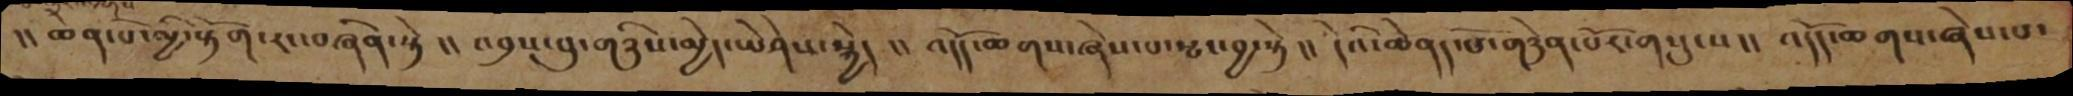།། ཆེན་པོ་མྱི་རྟོག་རང་བཞིན་སྟེ །། འབྲས་བུ་གཉིས་མྱེད་ཡེ་ཤེས་སྐྱེད །། འདོད་ཆགས་ཞེས་པ་སྤང་བྱ་སྟེ །། དེའི་ཆེནད་པོ་གཉེན་པོར་གསུངས།། འདོད་ཆགས་ཞེས་པ་
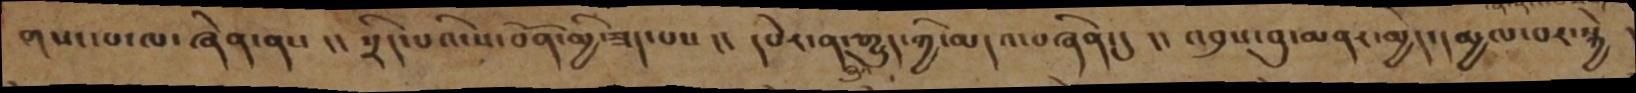གསང་པ་ལ་ཞེན་ནས །། སྲིད་པའི་ས་བོན་མྱི་ཟད་པས །། དཔེར་ན་རྒྱུད་གྱི་མདའ་བཞིན་དུ །། འབྲས་བུ་མནར་མྱེད་དམྱལ་པར་སྐྱེ །།
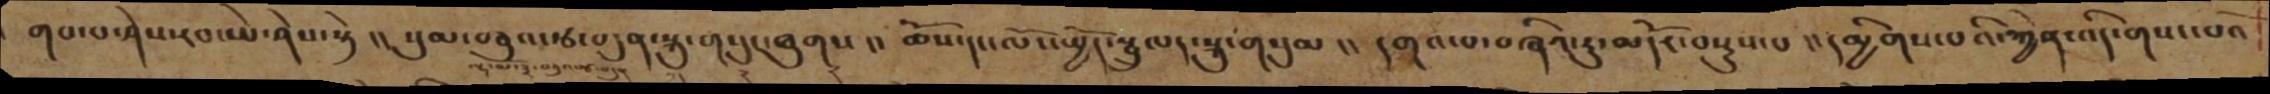གབ་པ་ཤེས་རབ་ཡེ་ཤེས་སྟེ །།སུམ་བཅུ་རྩ་བདུན་སྐུ་གསུང་ཐུགས །། ཆོས་དང་ལོང་སྤྱོད་སྤྲུལད་སྐུ་གསུམ །། དགའ་པ་བཞིའ་རུ་མདོར་བསྡུས་པ །། དམྱིགས་པའི་རྐྱེན་འདི་གསང་པའོ
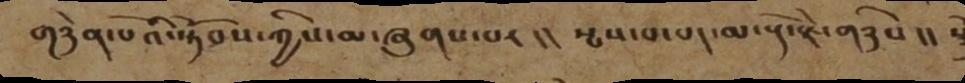གཉེན་པོའི་སྟོབས་ཀྱིས་མ་ཞུགས་པར །། སྦས་པ་པད་མ་རྡོ་རྗེ་གཉིས །།
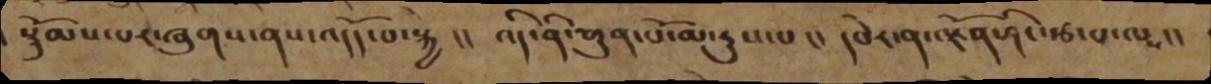སྙོམས་པར་ཞུགས་ནས་འདོད་པ་སྐྱེ །།  འདི་ནི་གུན་པོ་མ་རུས་པ །། དཔེར་ན་ལྗོན་ཤིང་རྩ་བ་ལས།།
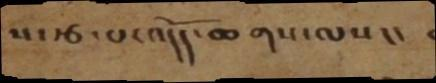པ་རྩ་པ་འདོད་ཆགས་ལས།།
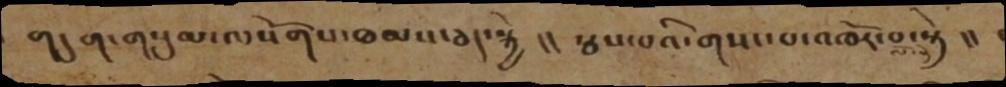གདུག་གསུམ་ལསོགས་ཐམས་ཅད་སྐྱེ །། སྦས་པའི་གསང་པ་འཁོར་བ་སྟེ །།
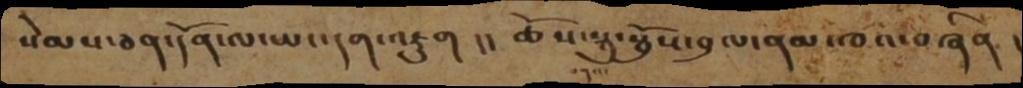སེམས་ཅན་དོན་ལ་ཡང་དག་འཇུག །།  ཆོས་སྐུ་སྤྲོས་བྲལ་ནམ་ཁའ་བཞིན །།
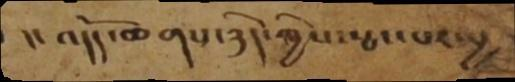།། འདོད་ཆགས་ཉིད་ཀྱིས་སྤང་པར་བྱ
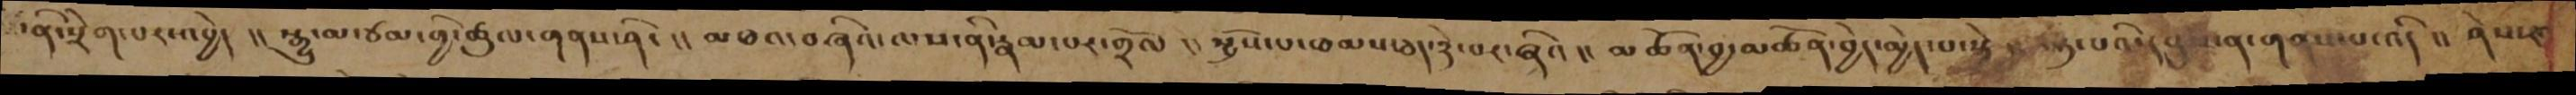་ནི་སྲེག་པར་འབྱེད།། སྒྱུ་མ་ཙམ་གྱི་ཚུལ་གནས་ནི།། མཐའ་བཞིའ་ལས་ནི་རྣམ་པར་གྲོལ།། སྤྲོས་པ་ཐམས་ཅད་ཉེ་བར་ཞིའ།། མཚོན་བྱ་མཚོན་བྱེད་མྱེད་པ་སྟེ།། བསྟན་པའི་དབུས་ན་གནས་པ་འདི།། ཤེས་རབ
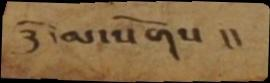ཉི་མ་སོགས །།
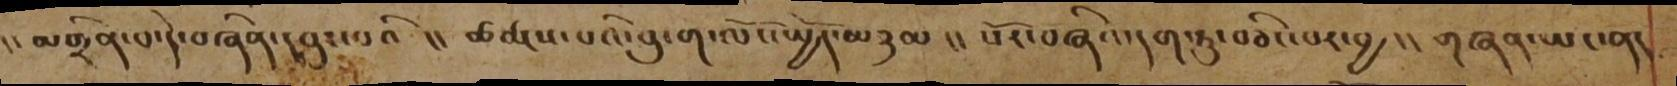།།  མགྲིན་པ་དེ་བཞིན་དཔུང་པའི །།  ཚརྨས་པའི་བུ་ག་ལོང་སྤྱོད་མཉམ །། སོར་བཞིའ་དག་ཏུ་བཅིངས་པར་བྱ །། གཞན་ཡང་ནད
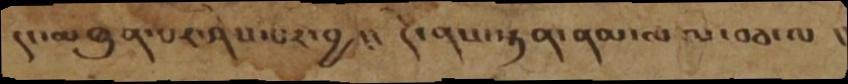དང་མཐུན་པར་ཤེས་པར་བྱ །།  དེ་ནས་སྟན་ནམ་མལ་བཅ་ལ །།
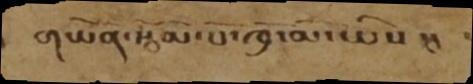གཡོན་རྩོམ་པོ་ཁྲོ་མོ་ཡིས །།
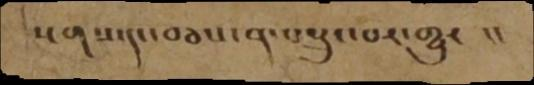སྔགས་དང་བཅས་ན་བསྲུང་བར་གྱུར    །།
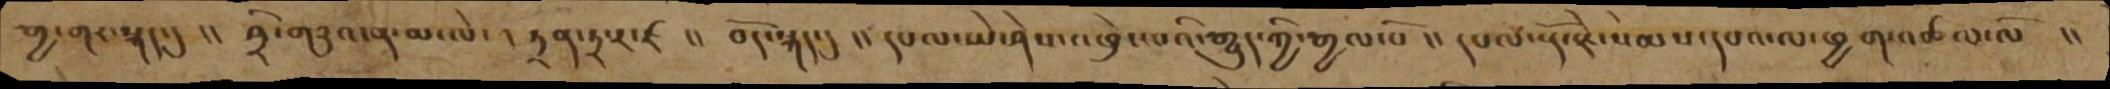རྒྱ་གར་སྐད་དུ །། ཤྲི་གཉའ་ན་མ་ལེ་ །ཏྲན་ཏྲ་ར་ཛ །། བོད་སྐད་དུ །། དཔལ་ཡེ་ཤེས་འཕྲེང་པའི་རྒྱུད་ཀྱི་རྒྱལ་པོ །། དཔལ་རྡོ་རྗེ་སེམས་དཔའ་ལ་ཕྱག་འཚལ་ལོ །།
